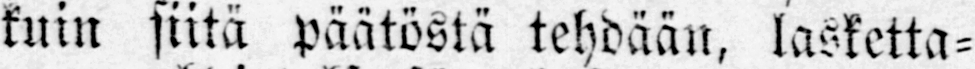kuin siitä päätöstä tehdään, lasketta-
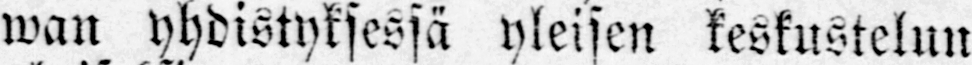wan yhdistyksessä yleisen keskustelun
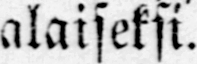alaiseksi.
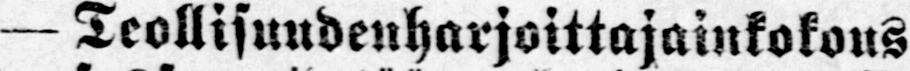— Teollisuudenharjoittajainkokous
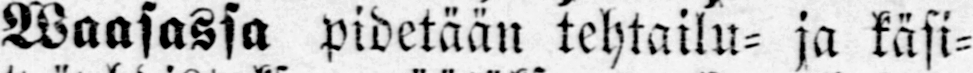Wassassa pidetään tehtailu- ja käsi-
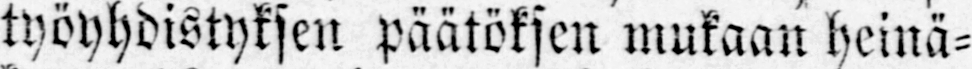työyhdistyksen päätöksen mukaan heinä-
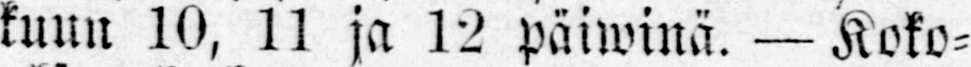kuun 10, 11 ja 12 päiwinä. — Koko-
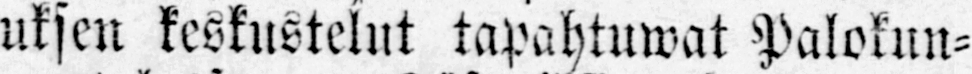uksen keskustelut tapahtuwat Palokun-
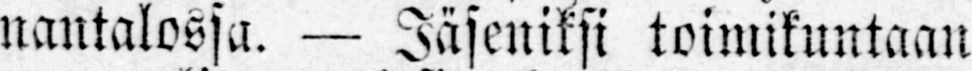nantalossa. — Jäseniksi toimikuntaan
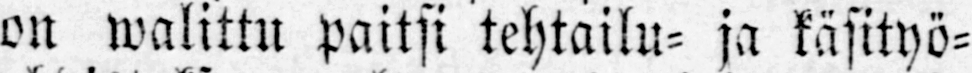on walittu paitsi tehtailu- ja käsityö-
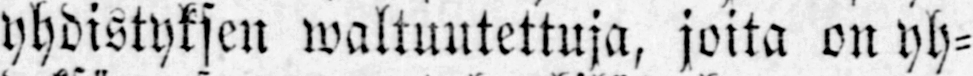yhdistyksen waltuutettuja, joita on yh-
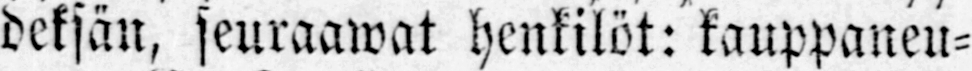deksän, seuraawat henkilöt: kauppaneu-
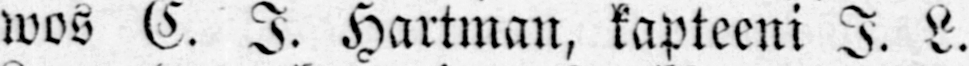wos C. J. Hartman, kapteeni J. L.
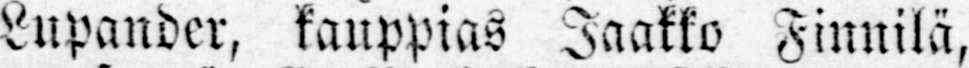Lupander, kauppias Jaakko Finnilä,
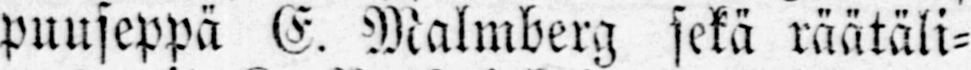puuseppä E. Malmberg sekä räätäli-
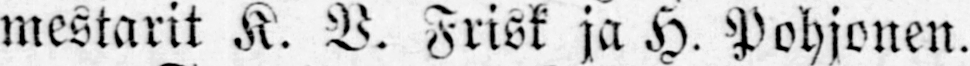mestarit K. V. ja H. Pohjonen.
